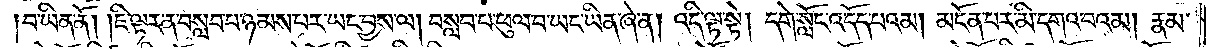།བ་ཡིན་ནོ། །ཇི་ལྟར་ན་བསླབ་པ་ཉམས་པར་ཡང་བྱས་ལ། བསླབ་པ་ཕུལ་བ་ཡང་ཡིན་ཞེ་ན། འདི་ལྟ་སྟེ། དགེ་སློང་འདོད་པའམ། མངོན་པར་མི་དགའ་བའམ། རྣམ་
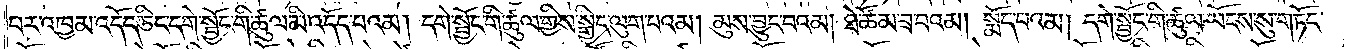པར་འཁྱམ་འདོད་ཅིང་དགེ་སྦྱོང་གི་ཚུལ་མི་འདོད་པའམ། དགེ་སྦྱོང་གི་ཚུལ་གྱིས་སྒྱིད་ལུག་པའམ། མུས་བྱུང་བའམ། ཐེ་ཚོམ་ཟ་བའམ། སྨོད་པའམ། དགེ་སྦྱོང་གི་ཚུལ་ཡོངས་སུ་གཏོང་
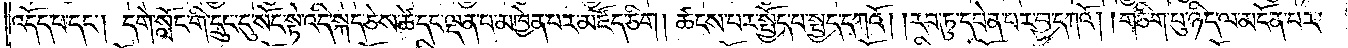འདོད་པ་དང༌། དགེ་སློང་གི་དྲུང་དུ་སོང་སྟེ་འདི་སྐད་ཅེས་ཚེ་དང་ལྡན་པ་མཁྱེན་པར་མཛོད་ཅིག། ཚངས་པར་སྤྱོད་པ་སྤྱད་དཀའོ། །རབ་ཏུ་དབེན་པར་བྱ་དཀའོ། །གཅིག་པུ་ཉིད་ལ་མངོན་པར་
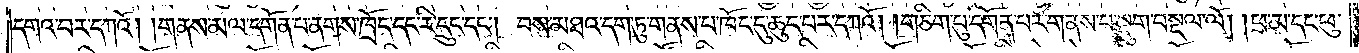དགའ་བར་དཀའོ། །གནས་མལ་དགོན་པ་ནགས་ཁྲོད་དང་རི་དྲུང་དང༌། བས་མཐའ་དག་ཏུ་གནས་པ་ཁོང་དུ་ཆུད་པར་དཀའོ། །གཅིག་པུ་དགོན་པར་གནས་པ་སྡུག་བསྔལ་ལོ། །ཕ་མ་དང་ཕུ་
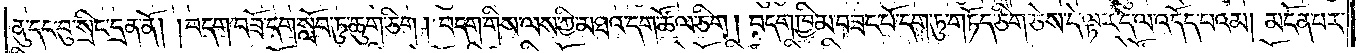ནུ་དང་བུ་སྲིང་དྲན་ནོ། །བདག་བཟོ་དག་སློབ་ཏུ་ཆུག་ཅིག། བདག་གིས་ལས་ཀྱི་མཐའ་དག་ཚོལ་ཅིག། བདག་ཁྱིམ་བཟང་པོ་དག་ཏུ་གཏོད་ཅིག་ཅེས་དེ་ལྟར་དེ་ལ་འདོད་པའམ། མངོན་པར་
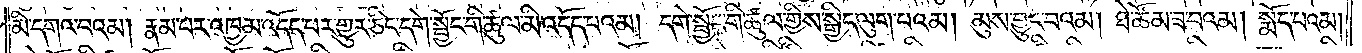མི་དགའ་བའམ། རྣམ་པར་འཁྱམ་འདོད་པར་གྱུར་ཅིང་དགེ་སྦྱོང་གི་ཚུལ་མི་འདོད་པའམ། དགེ་སྦྱོང་གི་ཚུལ་གྱིས་སྒྱིད་ལུག་པའམ། མུས་བྱུང་བའམ། ཐེ་ཚོམ་ཟ་བའམ། སྨོད་པའམ།
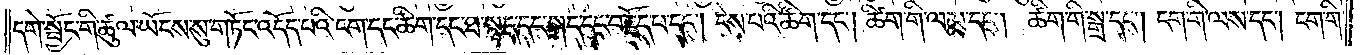དགེ་སྦྱོང་གི་ཚུལ་ཡོངས་སུ་གཏོང་འདོད་པའི་ངག་དང་ཚིག་དང་ཐ་སྙད་དང་སྐད་དང་བརྗོད་པ་དང༌། ངེས་པའི་ཚིག་དང༌། ཚིག་གི་ལམ་དང༌། ཚིག་གི་སྒྲ་དང༌། ངག་གི་ལས་དང༌། ངག་གི་
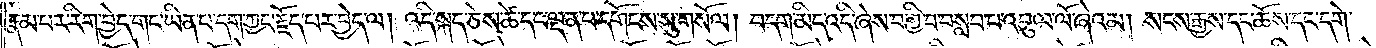རྣམ་པར་རིག་བྱེད་གང་ཡིན་པ་དག་ཀྱང་རྗོད་པར་བྱེད་ལ། འདི་སྐད་ཅེས་ཚེ་དང་ལྡན་པ་དགོངས་སུ་གསོལ། བདག་མིང་འདི་ཞེས་བགྱི་བ་བསླབ་པ་འབུལ་ལོ་ཞེའམ། སངས་རྒྱས་དང་ཆོས་དང་དགེ་
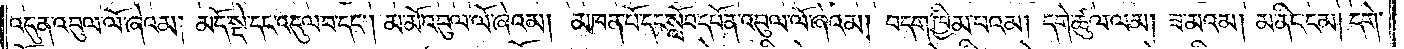འདུན་འབུལ་ལོ་ཞེའམ། མདོ་སྡེ་དང་འདུལ་བ་དང༌། མ་མོ་འབུལ་ལོ་ཞེའམ། མཁན་པོ་དང་སློབ་དཔོན་འབུལ་ལོ་ཞེའམ། བདག་ཁྱིམ་པའམ། དགེ་ཚུལ་ལམ། ཟ་མའམ། མ་ནིང་ངམ། དགེ་
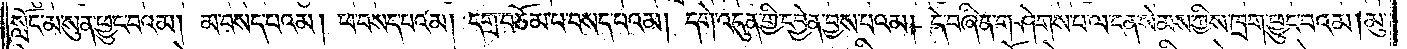སློང་མ་སུན་ཕྱུང་བའམ། མ་བསད་པའམ། ཕ་བསད་པའམ། དགྲ་བཅོམ་པ་བསད་པའམ། དགེ་འདུན་གྱི་དབྱེན་བྱས་པའམ། དེ་བཞིན་གཤེགས་པ་ལ་ངན་སེམས་ཀྱིས་ཁྲག་ཕྱུང་བའམ། མུ་
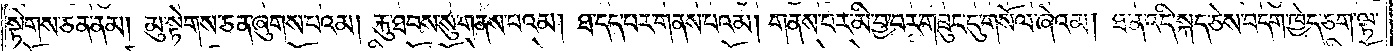སྟེགས་ཅན་ནམ། མུ་སྟེགས་ཅན་ཞུགས་པའམ། རྐུ་ཐབས་སུ་གནས་པའམ། ཐ་དད་པར་གནས་པའམ། གནས་པར་མི་བྱ་བར་གཟུང་དུ་གསོལ་ཞེའམ། ཐ་ན་འདི་སྐད་ཅེས་བདག་ཁྱེད་ཅག་ལྟ་
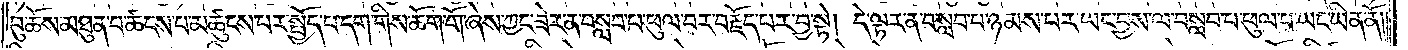བུ་ཆོས་མཐུན་པ་ཚངས་པ་མཚུངས་པར་སྤྱོད་པ་དག་གིས་ཆོག་གོ་ཞེས་ཀྱང་ཟེར་ན་བསླབ་པ་ཕུལ་བར་བརྗོད་པར་བྱ་སྟེ། དེ་ལྟར་ན་བསླབ་པ་ཉམས་པར་ཡང་བྱས་ལ་བསླབ་པ་ཕུལ་པ་ཡང་ཡིན་ནོ༎
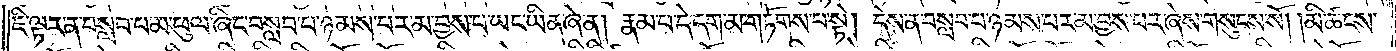ཇི་ལྟར་ན་བསླབ་པ་མ་ཕུལ་ཞིང་བསླབ་པ་ཉམས་པར་མ་བྱས་པ་ཡང་ཡིན་ཞེ་ན། རྣམ་པ་དེ་དག་མ་གཏོགས་པ་སྟེ། དེས་ན་བསླབ་པ་ཉམས་པར་མ་བྱས་པར་ཞེས་གསུངས་སོ། །མི་ཚངས་
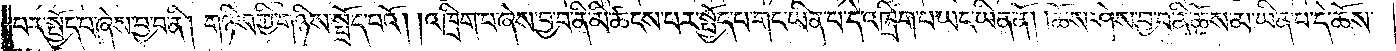པར་སྤྱོད་པ་ཞེས་བྱ་བ་ནི། གཉིས་ཀྱི་གཉིས་སྤྲོད་པའོ། །འཁྲིག་པ་ཞེས་བྱ་བ་ནི་མི་ཚངས་པར་སྤྱོད་པ་གང་ཡིན་པ་དེ་འཁྲིག་པ་ཡང་ཡིན་ནོ། །ཆོས་ཤེས་བྱ་བ་ནི་ཆོས་མ་ཡིན་པ་དེ་ཆོས་
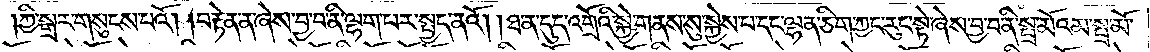ཀྱི་སྒྲར་གསུངས་པའོ། །བརྟེན་ན་ཞེས་བྱ་བ་ནི་ལྷག་པར་སྤྱད་ནའོ། །ཐ་ན་དུད་འགྲོའི་སྐྱེ་གནས་སུ་སྐྱེས་པ་དང་ལྷན་ཅིག་ཀྱང་རུང་སྟེ་ཞེས་བྱ་བ་ནི་སྤྲ་མོའམ་སྤྲ་མོ་
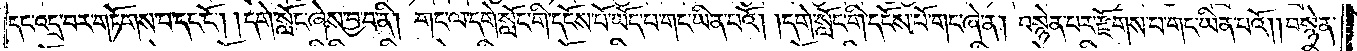དང་འདྲ་བར་གཏོགས་པ་དང་ངོ༌། །དགེ་སློང་ཞེས་བྱ་བ་ནི། གང་ལ་དགེ་སློང་གི་དངོས་པོ་ཡོད་པ་གང་ཡིན་པའོ། །དགེ་སློང་གི་དངོས་པོ་གང་ཞེ་ན། བསྙེན་པར་རྫོགས་པ་གང་ཡིན་པའོ། །བསྙེན་
